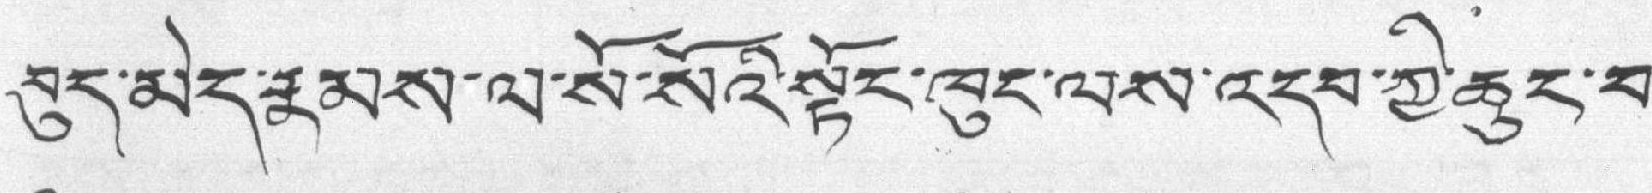བུད་མེད་རྣམས་ལ་སོ་སོའི་སྟོང་ཁུང་ལས་འདབ་ཀྱི་ཆུང་བ་
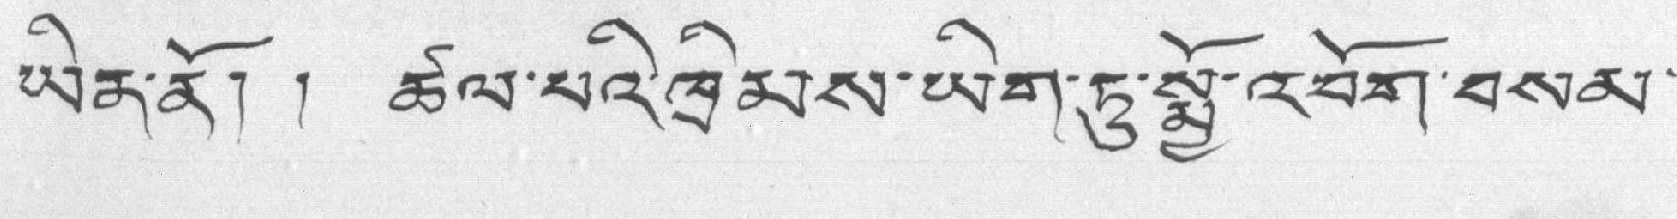ཡིན་ནོ། ། ཚལ་པའི་ཁྲིམས་ཡིག་ཏུ་སྨྱོ་འབོག་བསམ་
